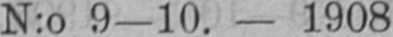N:o 9—10. — 1908.
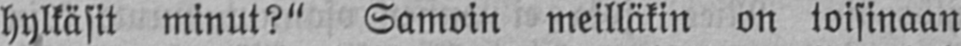hylkäsit minut?" Samoin meilläkin on toisinaan
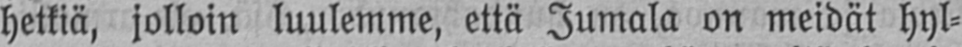hetkiä, jolloin luulemme, että Jumala on meidät hyl-
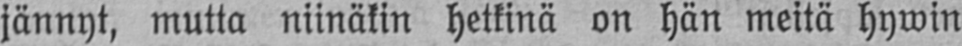jännyt, mutta niinäkin hetkinä on hän meitä hywin
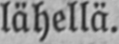lähellä.
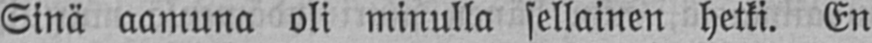Sinä aamuna oli minulla sellainen hetki. En
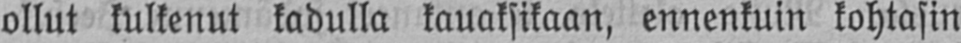ollut kulkenut kadulla kauaksikaan, ennenkuin kohtasin
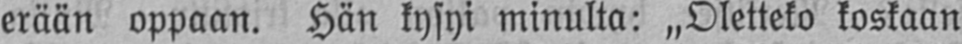erään oppaan. Hän kysyi minulta: „Oletteko koskaan
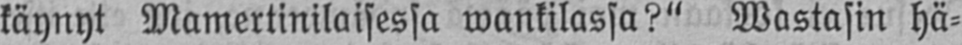käynyt Mamertinilaisessa wankilassa?" Wastasin hä-
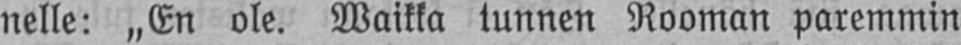nelle: „En ole. Waikka tunnen Rooman paremmin
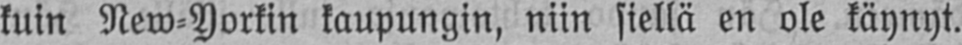kuin New-Yorkin kaupungin, niin siellä en ole käynyt.
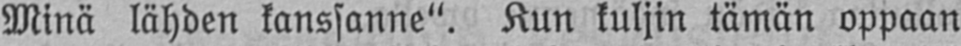Minä lähden kanssanne". Kun kuljin tämän oppaan
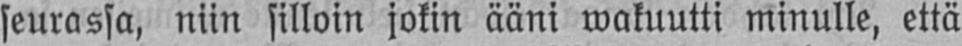seurassa, niin silloin jokin ääni wakuutti minulle, että
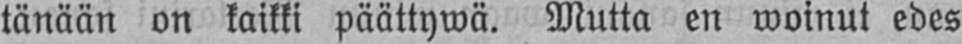tänään on kaikki päättywä. Mutta en woinut edes
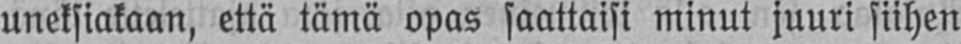uneksiakaan, että tämä opas saattaisi minut juuri siihen
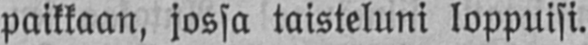paikkaan, jossa taisteluni loppuisi.
